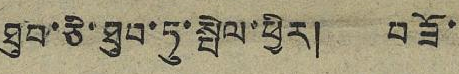ཐུབ་ཅི་ཐུབ་ཏུ་སྤེལ་ཕྱིར། བཟོ་
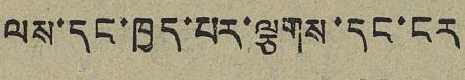ལས་དང་ཁྱད་པར་ལྕགས་དང་ངར
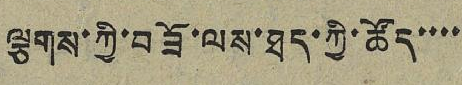ལྕགས་ཀྱི་བཟོ་ལས་ཐད་ཀྱི་ཚོད་་་་
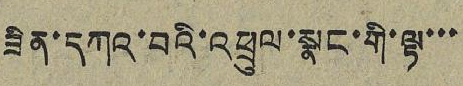ཟིན་དཀའ་བའི་འཕྲུལ་སྣང་གི་ལྟ་་་
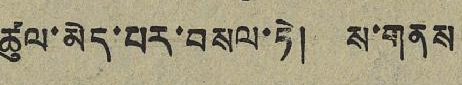ཚུལ་མེད་པར་བསལ་ཏེ། ས་གནས
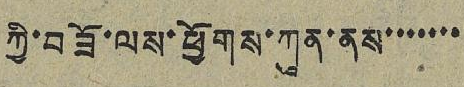ཀྱི་བཟོ་ལས་ཕྱོགས་ཀུན་ནས་་་་་་་
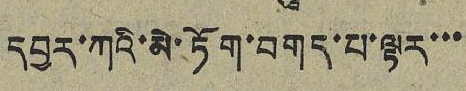དབྱར་ཀའི་མེ་ཏོག་བགད་པ་ལྟར་་་
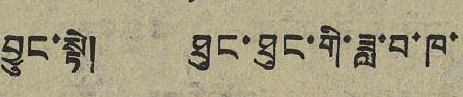བྱུང་སྟེ། ཐུང་ཐུང་གི་ཟླ་བ་ཁ་
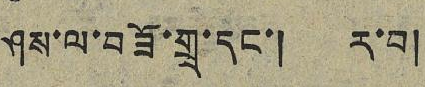ཤས་ལ་བཟོ་གྲྭ་དང་། ར་བ།
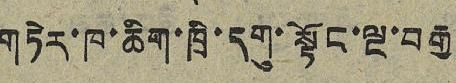གཏེར་ཁ་ཆིག་ཁྲི་དགུ་སྟོང་ལྔ་བརྒྱ
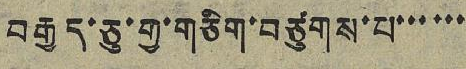བརྒྱད་ཅུ་གྱ་གཅིག་བཙུགས་པ་་་་་་
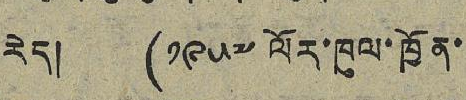རེ། (༡༩༥༧ ལོར་ཁུལ་ཁྱོན་
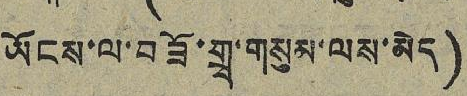ཡོངས་ལ་བཟོ་གྲྭ་གསུམ་ལས་མེད)
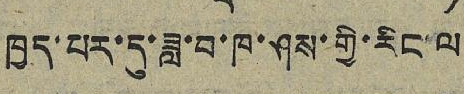ཁྱད་པར་དུ་ཟླ་བ་ཁ་ཤས་གྱི་རིང་ལ
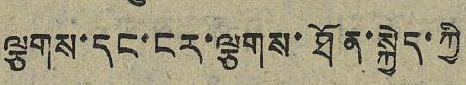ལྕགས་དང་ངར་ལྕགས་ཐོན་སྐྱེད་ཀྱི
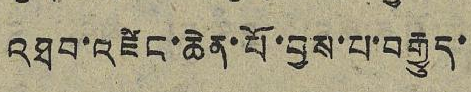འཐབ་འཛིང་ཆེན་པོ་བྱས་པ་བརྒྱུད་
